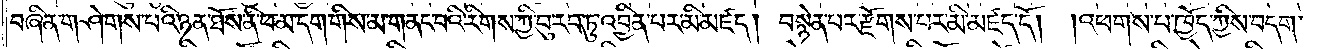བཞིན་གཤེགས་པའི་ཉན་ཐོས་ནི་ཕ་མ་དག་གིས་མ་གནང་བའི་རིགས་ཀྱི་བུ་རབ་ཏུ་འབྱིན་པར་མི་མཛད། བསྙེན་པར་རྫོགས་པར་མི་མཛད་དོ། །འཕགས་པ་ཁྱོད་ཀྱིས་བདག་
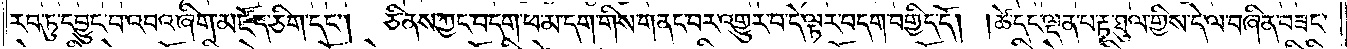རབ་ཏུ་དབྱུང་བ་འབའ་ཞིག་མཛོད་ཅིག་དང༌། ཅི་ནས་ཀྱང་བདག་ཕ་མ་དག་གིས་གནང་བར་འགྱུར་བ་དེ་ལྟར་བདག་བགྱིད་དོ། །ཚེ་དང་ལྡན་པ་རྟ་ཐུལ་གྱིས་དེ་ལ་བཞིན་བཟང་
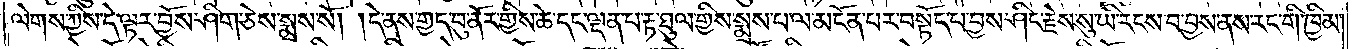ལེགས་ཀྱིས་དེ་ལྟར་བྱོས་ཤིག་ཅེས་སྨྲས་སོ། །དེ་ནས་གྱད་བུ་ནོར་གྱིས་ཚེ་དང་ལྡན་པ་རྟ་ཐུལ་གྱིས་སྨྲས་པ་ལ་མངོན་པར་བསྟོད་པ་བྱས་ཤིང་རྗེས་སུ་ཡི་རངས་བ་བྱས་ནས་རང་གི་ཁྱིམ་
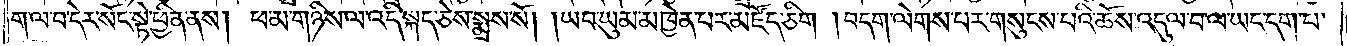ག་ལ་བ་དེར་སྟོང་སྟེ་ཕྱིན་ནས། ཕ་མ་གཉིས་ལ་འདི་སྐད་ཅེས་སྨྲས་སོ། །ཡབ་ཡུམ་མཁྱེན་པར་མཛོད་ཅིག །བདག་ལེགས་པར་གསུངས་པའི་ཆོས་འདུལ་བ་ལ་ཡང་དག་པ་
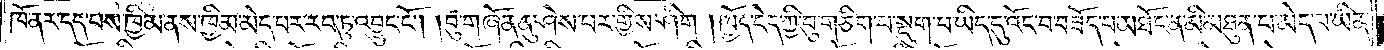ཁོ་ནར་དད་པས་ཁྱིམ་ནས་ཁྱིམ་མེད་པར་རབ་ཏུ་འབྱུང་ངོ༌། །བུ་གཞོན་ནུ་ཤེས་པར་གྱིས་ཤིག །ཁྱོད་ངེད་ཀྱི་བུ་གཅིག་པ་སྡུག་པ་ཡིད་དུ་འོང་བ་བཟོད་པ་མཐོང་ན་མི་མཐུན་པ་མེད་པ་ཡིན་
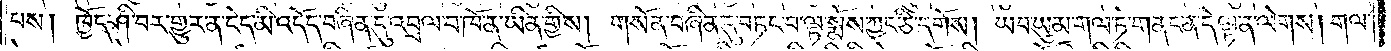པས། ཁྱོད་ཤི་བར་གྱུར་ན་ངེད་མི་འདོད་བཞིན་དུ་འབྲལ་བ་ཁོ་ན་ཡིན་གྱིས། གསོན་བཞིན་དུ་བཏང་བ་ལྟ་སྨོས་ཀྱང་ཅི་དགོས། ཡབ་ཡུམ་གལ་ཏེ་གནང་ན་དེ་ལྟ་ན་ལེགས། གལ་
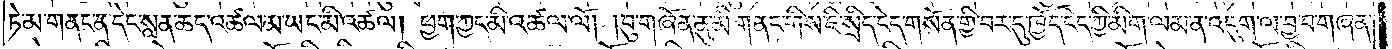ཏེ་མ་གནང་ན་དེང་སླན་ཆད་འཚལ་མ་ཡང་མི་འཚལ། ཕྱག་ཀྱང་མི་འཚལ་ལོ། །བུ་གཞོན་ནུ་མི་གནང་གིས་ཇི་སྲིད་ངེད་གསོན་གྱི་བར་དུ་ཁྱོད་ངེད་ཀྱི་མིག་ལམ་ན་འདུག་ལ་བྱ་བ་གཞན་
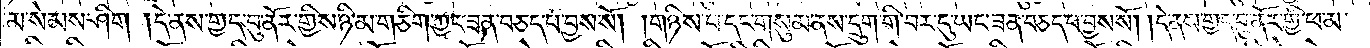མ་སེམས་ཤིག །དེ་ནས་གྱད་བུ་ནོར་གྱིས་ཉི་མ་གཅིག་ཀྱང་ཟན་བཅད་པ་བྱས་སོ། །གཉིས་པ་དང་གསུམ་ནས་དྲུག་གི་བར་དུ་ཡང་ཟན་བཅད་པ་བྱས་སོ། །དེ་ནས་གྱད་བུ་ནོར་གྱི་ཕ་མ་
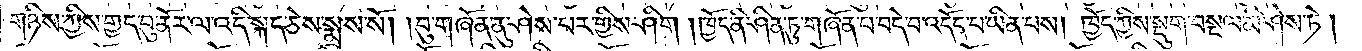གཉིས་ཀྱིས་གྱད་བུ་ནོར་ལ་འདི་སྐད་ཅེས་སྨྲས་སོ། །བུ་གཞོན་ནུ་ཤེས་པར་གྱིས་ཤིག །ཁྱོད་ནི་ཤིན་ཏུ་གཞོན་པ་བདེ་བ་འདོད་པ་ཡིན་པས། ཁྱོད་ཀྱིས་སྡུག་བསྔལ་མི་ཤེས་ཏེ།
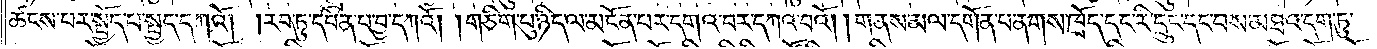ཚངས་པར་སྤྱོད་པ་སྤྱད་དཀའོ། །རབ་ཏུ་དབེན་པ་བྱ་དཀའོ། །གཅིག་པུ་ཉིད་ལ་མངོན་པར་དགའ་བར་དཀའ་བའོ། །གནས་མལ་དགོན་པ་ནགས་ཁྲོད་དང་རི་དྲུང་དང་བས་མཐའ་དག་ཏུ་
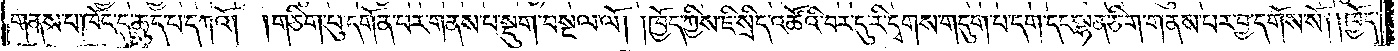གནས་པ་ཁོང་དུ་ཆུད་པ་དཀའོ། །གཅིག་པུ་དགོན་པར་གནས་པ་སྡུག་བསྔལ་ལོ། །ཁྱོད་ཀྱིས་ཇི་སྲིད་འཚོའི་བར་དུ་རི་དྭགས་གདུག་པ་དག་དང་ལྷན་ཅིག་གནས་པར་བྱ་དགོས་སོ། །ཁྱོད་
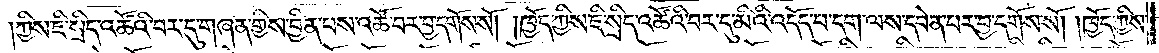ཀྱིས་ཇི་སྲིད་འཚོའི་བར་དུ་གཞན་གྱིས་བྱིན་པས་འཚོ་བར་བྱ་དགོས་སོ། །ཁྱོད་ཀྱིས་ཇི་སྲིད་འཚོའི་བར་དུ་མིའི་འདོད་པ་དག་ལས་དབེན་པར་བྱ་དགོས་སོ། །ཁྱོད་ཀྱིས་
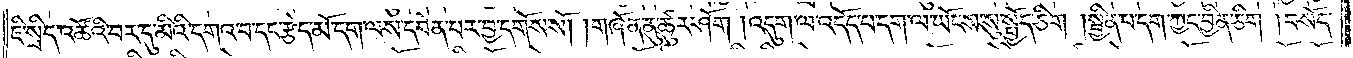ཇི་སྲིད་འཚོའི་བར་དུ་མིའི་དགའ་བ་དང་རྩེད་མོ་དག་ལས་དབེན་པར་བྱ་དགོས་སོ། །གཞོན་ནུ་ཚུར་ཤོག །འདུག་ལ་འདོད་པ་དག་ལ་ཡོངས་སུ་སྤྱོད་ཅིག །སྦྱིན་པ་དག་ཀྱང་བྱིན་ཅིག །བསོད་
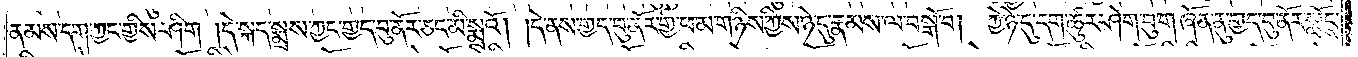ནམས་དག་ཀྱང་གྱིས་ཤིག །དེ་སྐད་སྨྲས་ཀྱང་གྱད་བུ་ནོར་ཅང་མི་སྨྲའོ། །དེ་ནས་གྱད་བུ་ནོར་གྱི་ཕ་མ་གཉིས་ཀྱིས་ཉེ་དུ་རྣམས་ལ་བསྒོ་བ། ཀྱེ་ཉེ་དུ་དག་ཚུར་ཤེག་བུ་གཞོན་ནུ་གྱད་བུ་ནོར་སློངས་
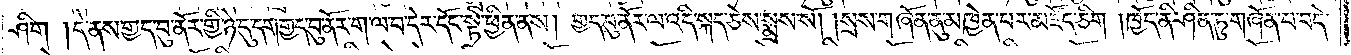ཤིག །དེ་ནས་གྱད་བུ་ནོར་གྱི་ཉེ་དུ་དག་གྱད་བུ་ནོར་ག་ལ་བ་དེར་དོང་སྟེ་ཕྱིན་ནས། གྱད་བུ་ནོར་ལ་འདི་སྐད་ཅེས་སྨྲས་སོ། །སྲས་གཞོན་ནུ་མཁྱེན་པར་མཛོད་ཅིག །ཁྱོད་ནི་ཤིན་ཏུ་གཞོན་པ་བདེ་
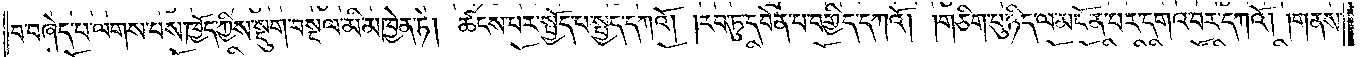བ་བཞེད་པ་ལགས་པས་ཁྱོད་ཀྱིས་སྡུག་བསྔལ་མི་མཁྱེན་ཏེ། ཚངས་པར་སྤྱོད་པ་སྤྱད་དཀའོ། །རབ་ཏུ་དབེན་པ་བགྱིད་དཀའོ། །གཅིག་པུ་ཉིད་ལ་མངོན་པར་དགའ་བར་དཀའོ། །གནས་
